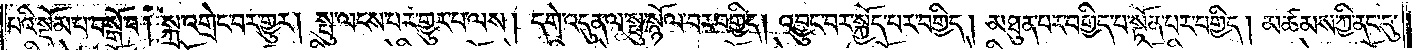པའི་སྡོམ་པ་བསྒོ་བ། སྐྲ་འགྲེང་བར་གྱུར། སྤུ་ལངས་པར་གྱུར་པ་ལས། དགེ་འདུན་ལ་སྤུ་སྙོལ་བར་བགྱིད། འབྱུང་བར་སྐྱོད་པར་བགྱིད། མཐུན་པར་བགྱིད་པ་སྟོན་པར་བགྱིད། མཚམས་ཀྱི་ནང་དུ་
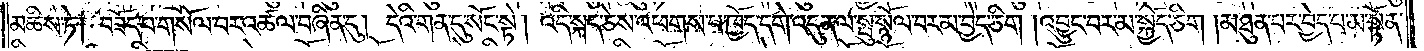མཆིས་ཏེ། བཟོད་པ་གསོལ་བར་འཚལ་བཞིན་དུ། དེའི་གན་དུ་སོང་སྟེ། འདི་སྐད་ཅེས་འཕགས་པ་ཁྱོད་དགེ་འདུན་ལ་སྤུ་སྙོལ་བར་མ་བྱེད་ཅིག །འབྱུང་བར་མ་སྐྱོད་ཅིག །མཐུན་པར་བྱེད་པ་མ་སྟོན་
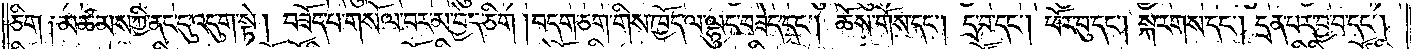ཅིག ༑མཚམས་ཀྱི་ནང་དུ་འདུག་སྟེ། བཟོད་པ་གསོལ་བར་མ་བྱེད་ཅིག །བདག་ཅག་གིས་ཁྱོད་ལ་ལྷུང་བཟེད་དང༌། ཆོས་གོས་དང༌། དྲ་བ་དང༌། ཕོར་བུ་དང༌། སྐེ་རགས་དང༌། དྲན་པར་བྱ་བ་དང༌།
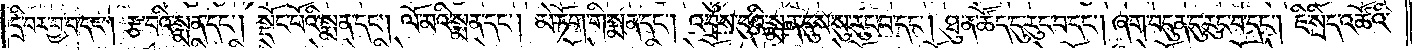དྲི་བར་བྱ་བ་དང༌། རྩ་བའི་སྨན་དང༌། སྡོང་པོའི་སྨན་དང༌། ལོ་མའི་སྨན་དང༌། མེ་ཏོག་གི་སྨན་དང༌། འབྲས་བུའི་སྨན་དུས་སུ་རུང་བ་དང༌། ཐུན་ཚོད་དུ་རུང་བ་དང༌། ཞག་བདུན་དུ་རུང་བ་དང༌། ཇི་སྲིད་འཚོའི་
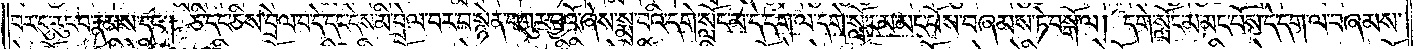བར་དུ་རུང་བ་རྣམས་དང༌། ཅི་དང་ཅིས་བྲེལ་བ་དེ་དང་དེས་མི་བྲེལ་བར་བསྙེན་བཀུར་བྱའོ་ཞེས་སྨྲ་བའི་དགེ་སློང་མ་དེ་དག་ལ་དགེ་སློང་མ་མང་པོས་བཞམས་ཏེ་བསྒོ་ལ། དགེ་སློང་མ་མང་པོས་དེ་དག་ལ་བཞམས་
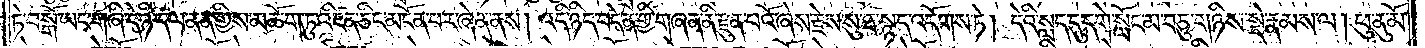ཏེ་བསྒོ་ཡང་གཞི་དེ་ཉིད་ལ་ནན་གྱིས་མཆོག་ཏུ་འཛིན་ཅིང་མངོན་པར་ཞེན་ནས། འདི་ཉིད་བདེན་གྱི་གཞན་ནི་རྫུན་པའོ་ཞེས་རྗེས་སུ་ཐ་སྙད་འདོགས་ཏེ། དེའི་སླད་དུ་དགེ་སློང་མ་བཅུ་གཉིས་སྡེ་རྣམས་ལ། ཕུ་ནུ་མོ་
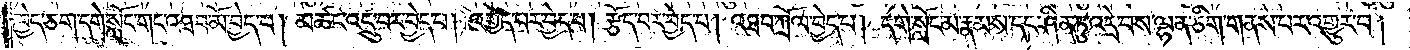ཁྱེད་ཅག་དགེ་སློང་གང་འཐབ་མོ་བྱེད་པ། མཚང་འདྲུ་བར་བྱེད་པ། འགྱེད་པར་བྱེད་པ། རྩོད་པར་བྱེད་པ། འཐབ་ཀྲོལ་བྱེད་པ། དགེ་སློང་མ་རྣམས་དང་ཤིན་ཏུ་འདྲེ་བས་ལྷན་ཅིག་གནས་པར་འགྱུར་བ།
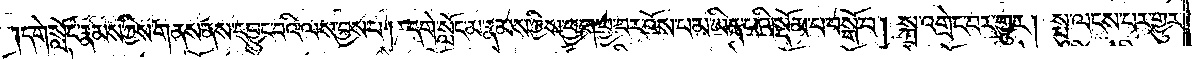དགེ་སློང་རྣམས་ཀྱིས་གནས་ནས་དབྱུང་བའི་ལས་བྱས་པ། དགེ་སློང་མ་རྣམས་ཀྱིས་ཕྱག་བྱ་བར་འོས་པ་མ་ཡིན་པའི་སྡོམ་པ་བསྒོ་བ། སྐྲ་འགྲེང་བར་གྱུར། སྤུ་ལངས་པར་གྱུར་
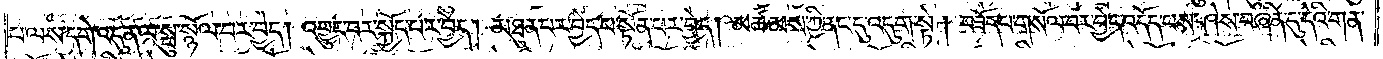པ་ལས་དགེ་འདུན་ལ་སྤུ་སྙོལ་བར་བྱེད། འབྱུང་བར་སྐྱོད་པར་བྱེད། མཐུན་པར་བྱེད་པ་སྟོན་པར་བྱེད། མཚམས་ཀྱི་ནང་དུ་འདུག་སྟེ། བཟོད་པ་གསོལ་བར་བྱེད་འདོད་པས་ཤེས་བཞིན་དུ་དེའི་གན་
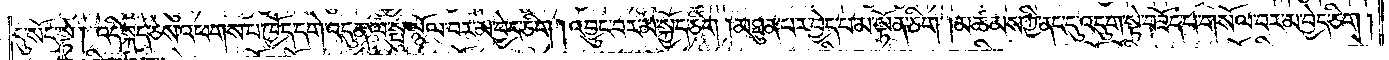དུ་སོང་སྟེ། འདི་སྐད་ཅེས་འཕགས་པ་ཁྱོད་དགེ་འདུན་ལ་སྤུ་སྙོལ་བར་མ་བྱེད་ཅིག །འབྱུང་བར་མ་སྐྱོད་ཅིག །མཐུན་པར་བྱེད་པ་མ་སྟོན་ཅིག །མཚམས་ཀྱི་ནང་དུ་འདུག་སྟེ་བཟོད་པ་གསོལ་བར་མ་བྱེད་ཅིག།
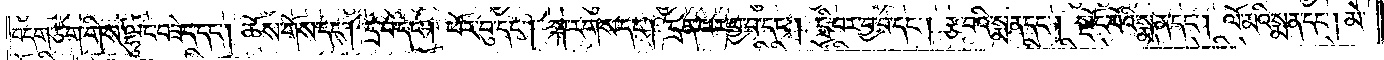བདག་ཅག་གིས་ལྷུང་བཟེད་དང༌། ཆོས་གོས་དང༌། དྲ་བ་དང༌། ཕོར་བུ་དང༌། སྐ་རགས་དང༌། དྲན་པར་བྱ་བ་དང༌། དྲི་བར་བྱ་བ་དང༌། རྩ་བའི་སྨན་དང༌། སྡོང་པོའི་སྨན་དང༌། ལོ་མའི་སྨན་དང༌། མེ་
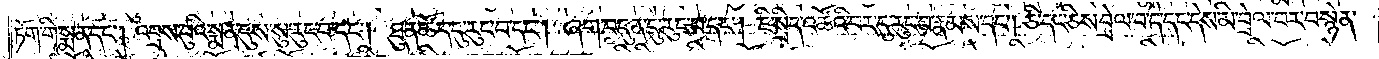ཏོག་གི་སྨན་དང༌། འབྲས་བུའི་སྨན་དུས་སུ་རུང་བ་དང༌། ཐུན་ཚོད་དུ་རུང་བ་དང༌། ཞག་བདུན་དུ་རུང་བ་དང༌། ཇི་སྲིད་འཚོའི་བར་དུ་རུང་བ་རྣམས་དང༌། ཅི་དང་ཅིས་བྲེལ་བ་དེ་དང་དེས་མི་བྲེལ་བར་བསྙེན་
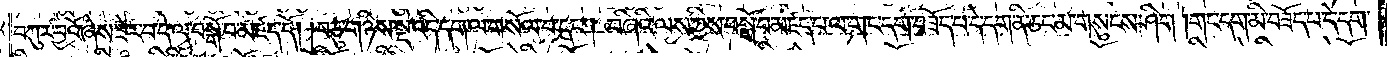བཀུར་བྱའོ་ཞེས་ཟེར་བ་དེ་ལ་བསྒོ་བ་མཛད་དོ། །བཅུ་གཉིས་སྡེ་འདི་དག་ལ་གསོལ་བ་དང༌། བཞིའི་ལས་ཀྱིས་བསྒོ་བ་མཛད་པ་ལ་གང་དག་བཟོད་པ་དེ་དག་ནི་ཅང་མ་གསུངས་ཤིག །གང་དག་མི་བཟོད་པ་དེ་དག་
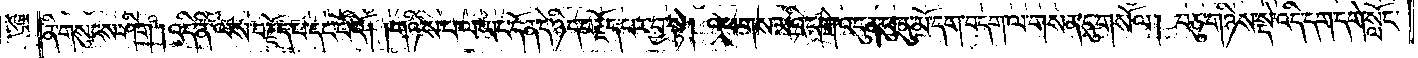ནི་གསུངས་ཤིག །འདི་ནི་ལས་བརྗོད་པ་དང་པོའོ། །གཉིས་པ་ལ་ཡང་དོན་དེ་ཉིད་བརྗོད་པར་བྱ་སྟེ། འཕགས་མའི་དགེ་འདུན་ཕུ་ནུ་མོ་དག་བདག་ལ་གསན་དུ་གསོལ། བཅུ་གཉིས་སྡེ་འདི་དག་དགེ་སློང་
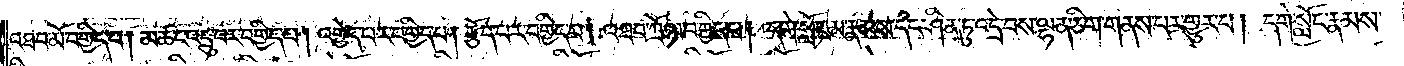འཐབ་མོ་བགྱིད་པ། མཚང་འདྲུ་བར་བགྱིད་པ། འགྱེད་པར་བགྱིད་པ། རྩོད་པར་བགྱིད་པ། འཐབ་ཀྲོལ་བགྱིད་པ། དགེ་སློང་མ་རྣམས་དང་ཤིན་ཏུ་འདྲེ་བས་ལྷན་ཅིག་གནས་པར་གྱུར་པ། དགེ་སློང་རྣམས་
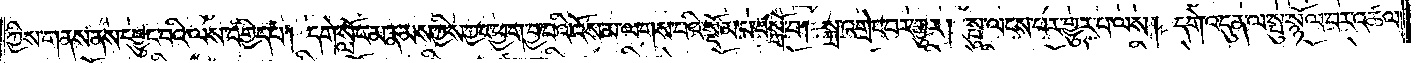ཀྱིས་གནས་ནས་དབྱུང་བའི་ལས་བགྱིད་པ། དགེ་སློང་མ་རྣམས་ཀྱིས་ཀྱང་ཕྱག་བྱ་བའི་འོས་མ་ལགས་པའི་སྡོམ་པ་བསྒོ་བ། སྐྲ་འགྲེང་བར་གྱུར། སྤུ་ལངས་པར་གྱུར་པ་ལས། དགེ་འདུན་ལ་སྤུ་སྙོལ་བར་འཚལ་
